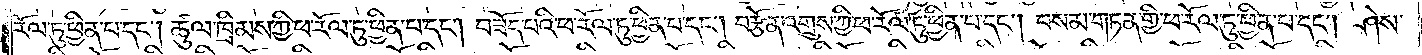རོལ་ཏུ་ཕྱིན་པ་དང༌། ཚུལ་ཁྲིམས་ཀྱི་ཕ་རོལ་ཏུ་ཕྱིན་པ་དང༌། བཟོད་པའི་ཕ་རོལ་ཏུ་ཕྱིན་པ་དང༌། བརྩོན་འགྲུས་ཀྱི་ཕ་རོལ་ཏུ་ཕྱིན་པ་དང༌། བསམ་གཏན་གྱི་ཕ་རོལ་ཏུ་ཕྱིན་པ་དང༌། ཤེས་
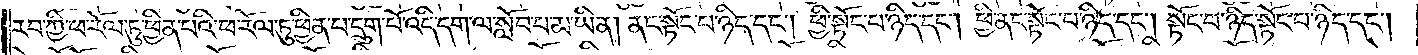རབ་ཀྱི་ཕ་རོལ་ཏུ་ཕྱིན་པའི་ཕ་རོལ་ཏུ་ཕྱིན་པ་དྲུག་པོ་འདི་དག་ལ་སློབ་པ་མ་ཡིན། ནང་སྟོང་པ་ཉིད་དང༌། ཕྱི་སྟོང་པ་ཉིད་དང༌། ཕྱི་ནང་སྟོང་པ་ཉིད་དང༌། སྟོང་པ་ཉིད་སྟོང་པ་ཉིད་དང༌།
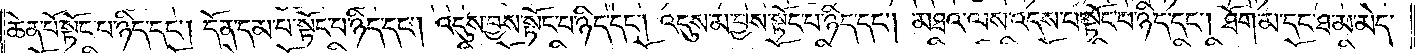ཆེན་པོ་སྟོང་པ་ཉིད་དང༌། དོན་དམ་པ་སྟོང་བ་ཉིད་དང༌། འདུས་བྱས་སྟོང་བ་ཉིད་དང༌། འདུས་མ་བྱས་སྟོང་པ་ཉིད་དང༌། མཐའ་ལས་འདས་པ་སྟོང་པ་ཉིད་དང༌། ཐོག་མ་དང་ཐ་མ་མེད་
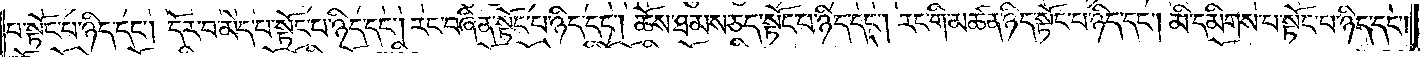པ་སྟོང་པ་ཉིད་དང༌། དོར་བ་མེད་པ་སྟོང་བ་ཉིད་དང༌། རང་བཞིན་སྟོང་པ་ཉིད་དང༌། ཆོས་ཐམས་ཅད་སྟོང་པ་ཉིད་དང༌། རང་གི་མཚན་ཉིད་སྟོང་པ་ཉིད་དང༌། མི་དམིགས་པ་སྟོང་པ་ཉིད་དང༌།
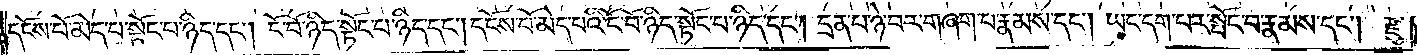དངོས་པོ་མེད་པ་སྟོང་པ་ཉིད་དང༌། ངོ་བོ་ཉིད་སྟོང་པ་ཉིད་དང༌། དངོས་པོ་མེད་པའི་ངོ་བོ་ཉིད་སྟོང་བ་ཉིད་དང༌། དྲན་པ་ཉེ་བར་གཞག་པ་རྣམས་དང༌། ཡང་དག་པར་སྤོང་བ་རྣམས་དང༌། རྫུ་
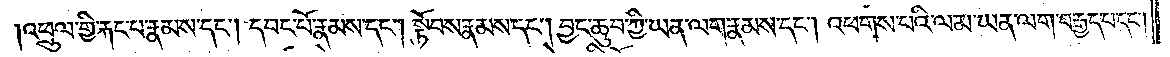འཕྲུལ་གྱི་རྐང་པ་རྣམས་དང༌། དབང་པོ་རྣམས་དང༌། སྟོབས་རྣམས་དང༌། བྱང་ཆུབ་ཀྱི་ཡན་ལག་རྣམས་དང༌། འཕགས་པའི་ལམ་ཡན་ལག་བརྒྱད་པ་དང༌།
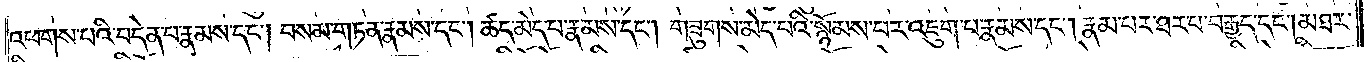འཕགས་པའི་བདེན་པ་རྣམས་དང༌། བསམ་གཏན་རྣམས་དང༌། ཚད་མེད་པ་རྣམས་དང༌། གཟུགས་མེད་པའི་སྙོམས་པར་འཇུག་པ་རྣམས་དང༌། རྣམ་པར་ཐར་པ་བརྒྱད་དང༌། མཐར་
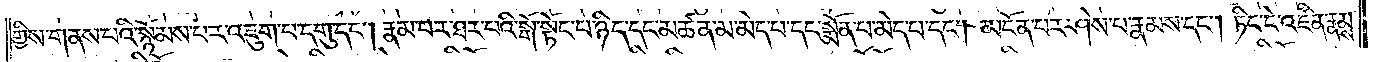གྱིས་གནས་པའི་སྙོམས་པར་འཇུག་པ་དགུ་དང༌། རྣམ་པར་ཐར་བའི་སྒོ་སྟོང་པ་ཉིད་དང་མཚན་མ་མེད་པ་དང་སྨོན་པ་མེད་པ་དང༌། མངོན་པར་ཤེས་པ་རྣམས་དང༌། ཏིང་ངེ་འཛིན་རྣམས་
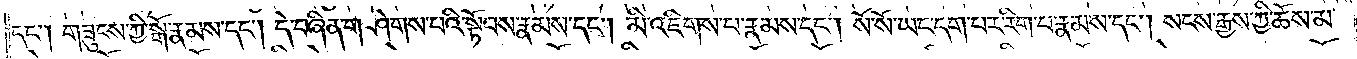དང༌། གཟུངས་ཀྱི་སྒོ་རྣམས་དང༌། དེ་བཞིན་གཤེགས་པའི་སྟོབས་རྣམས་དང༌། མི་འཇིགས་པ་རྣམས་དང༌། སོ་སོ་ཡང་དག་པར་རིག་པ་རྣམས་དང༌། སངས་རྒྱས་ཀྱི་ཆོས་མ་
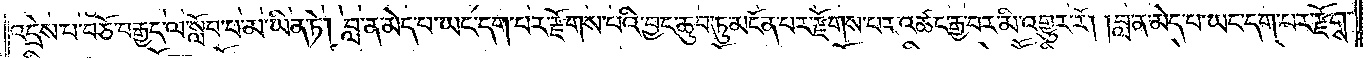འདྲེས་པ་བཅོ་བརྒྱད་ལ་སློབ་པ་མ་ཡིན་ཏེ། བླ་ན་མེད་པ་ཡང་དག་པར་རྫོགས་པའི་བྱང་ཆུབ་ཏུ་མངོན་པར་རྫོགས་པར་འཚང་རྒྱ་བར་མི་འགྱུར་རོ། །བླ་ན་མེད་པ་ཡང་དག་པར་རྫོགས་
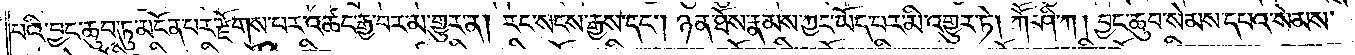པའི་བྱང་ཆུབ་ཏུ་མངོན་པར་རྫོགས་པར་འཚང་རྒྱ་བར་མ་གྱུར་ན། རང་སངས་རྒྱས་དང༌། ཉན་ཐོས་རྣམས་ཀྱང་ཡོང་པར་མི་འགྱུར་ཏེ། ཀཽ་ཤི་ཀ། བྱང་ཆུབ་སེམས་དཔའ་སེམས་
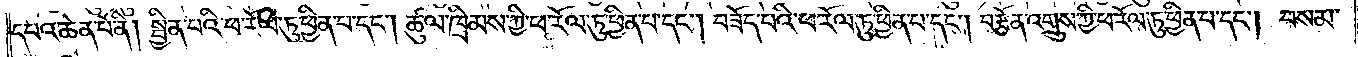དཔའ་ཆེན་པོ་ནི། སྦྱིན་པའི་ཕ་རོལ་ཏུ་ཕྱིན་པ་དང༌། ཚུལ་ཁྲིམས་ཀྱི་ཕ་རོལ་ཏུ་ཕྱིན་པ་དང༌། བཟོད་པའི་ཕ་རོལ་ཏུ་ཕྱིན་པ་དང༌། བརྩོན་འགྲུས་ཀྱི་ཕ་རོལ་ཏུ་ཕྱིན་པ་དང༌། བསམ་
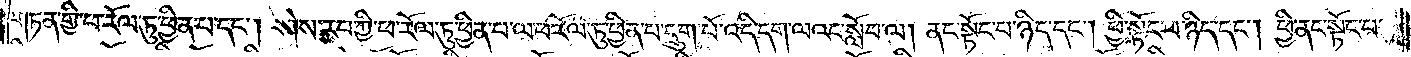གཏན་གྱི་ཕ་རོལ་ཏུ་ཕྱིན་པ་དང༌། ཤེས་རབ་ཀྱི་ཕ་རོལ་ཏུ་ཕྱིན་པ་ལ་ཕ་རོལ་ཏུ་ཕྱིན་པ་དྲུག་པོ་འདི་དག་ལའང་སློབ་ལ། ནང་སྟོང་པ་ཉིད་དང༌། ཕྱི་སྟོང་པ་ཉིད་དང༌། ཕྱི་ནང་སྟོང་པ་
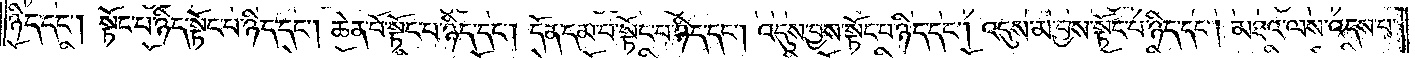ཉིད་དང་༑ སྟོང་པ་ཉིད་སྟོང་པ་ཉིད་དང༌། ཆེན་པོ་སྟོང་པ་ཉིད་དང༌། དོན་དམ་པ་སྟོང་པ་ཉིད་དང༌། འདུས་བྱས་སྟོང་པ་ཉིད་དང༌། འདུས་མ་བྱས་སྟོང་པ་ཉིད་དང༌། མཐའ་ལས་འདས་པ་
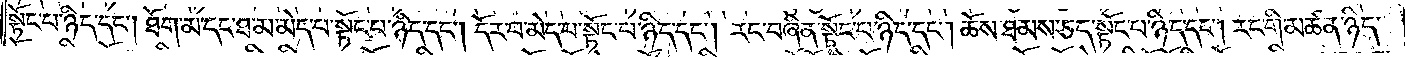སྟོང་པ་ཉིད་དང༌། ཐོག་མ་དང་ཐ་མ་མེད་པ་སྟོང་པ་ཉིད་དང༌། དོར་བ་མེད་པ་སྟོང་པ་ཉིད་དང༌། རང་བཞིན་སྟོང་པ་ཉིད་དང༌། ཆོས་ཐམས་ཅད་སྟོང་པ་ཉིད་དང༌། རང་གི་མཚན་ཉིད་
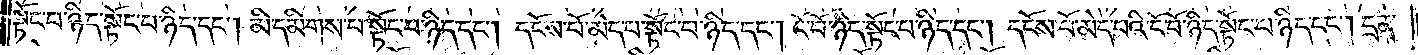སྟོང་པ་ཉིད་སྟོང་པ་ཉིད་དང༌། མི་དམིགས་པ་སྟོང་བ་ཉིད་དང༌། དངོས་པོ་མེད་པ་སྟོང་པ་ཉིད་དང༌། ངོ་བོ་ཉིད་སྟོང་པ་ཉིད་དང༌། དངོས་པོ་མེད་པའི་ངོ་བོ་ཉིད་སྟོང་པ་ཉིད་དང༌། དྲན་
